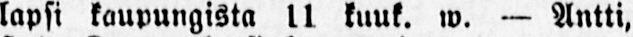lapsi kaupungista ll kuuk. w. — Antti,
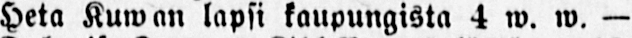Heta Kuwan lapsi kaupungista 4 w. w. —
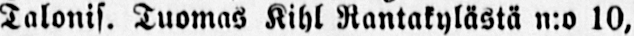Talonis. Tuomas Kihl Rantakylästä n:o 10,
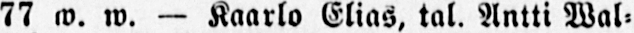77 w. w. — Kaarlo Elias, tal, Antti Wal-
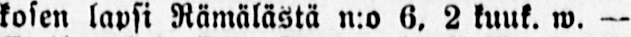kosen lapsi Rämälästä n:o 6, 2 kuuk. w. —
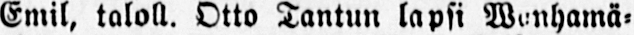Emil, taloll. Otto Tantun lapsi Wanhamä-
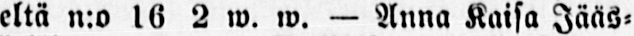eltä n:o l6 2 w, w. — Anna Kaisa Jääs-
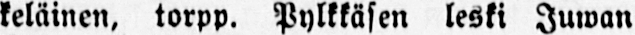keläinen, torpp. Pylkkäsen leski Juwan
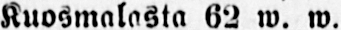Kuosmalasta 62 w. w,
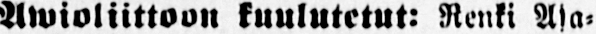Awioliittoon kuulutetut: Renki Asa-
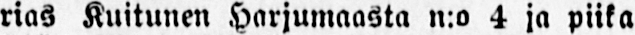rias Kuitunen Harjumaasta n:o 4 ja piika
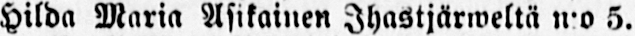Hilda Maria Asikainen Ihastjärweltä n:o 5.
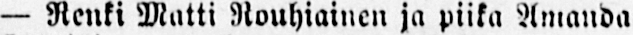— Renki Matti Rouhiainen ja piika Amanda
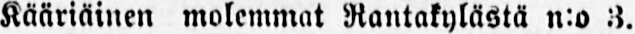Kääriäinen molemmat Rantakylästä n:o 3.
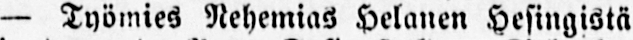— Työmies Nehemias Helanen Hesingistä
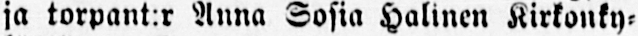ja torpant:r Anna Sosia Halinen Kirkonky-
